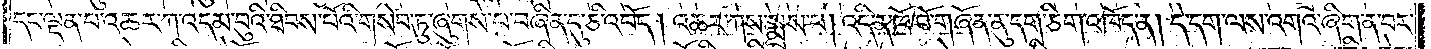དང་ལྡན་པ་འཆར་ཀ་འདམ་བུའི་ཐིབས་པོའི་གསེབ་ཏུ་ཞུགས་པ་བཞིན་དུ་ཅི་འབོད། འཆར་ཀས་སྨྲས་པ། འདི་ན་ཁོ་བོ་གཞོན་ནུ་དག་ཅིག་འཁོད་ན། དེ་དག་ལས་འགའ་ཞིག་ན་བར་
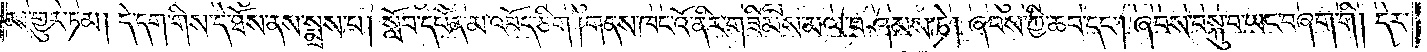མ་གྱུར་ཏམ། དེ་དག་གིས་དེ་ཐོས་ནས་སྨྲས་པ། སློབ་དཔོན་མ་འབོད་ཅིག །གནས་ཁང་འོ་ནིར་གཟིམས་མལ་བཤམས་ཏེ། ཞབས་ཀྱི་ཆབ་དང༌། ཞབས་བསྐུ་བ་ཡང་བཞག་གི །དེར་
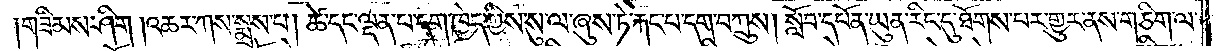གཟིམས་ཤིག །འཆར་ཀས་སྨྲས་པ། ཚེ་དང་ལྡན་པ་དག་ཁྱེད་ཀྱིས་སུ་ལ་ཞུས་ཏེ་རྐང་པ་དག་བཀྲུས། སློབ་དཔོན་ཡུན་རིང་དུ་ཐོགས་པར་གྱུར་ནས་གཅིག་ལ་
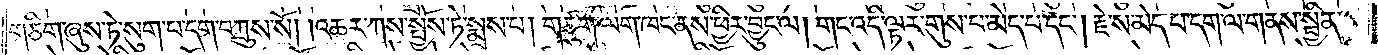གཅིག་ཞུས་ཏེ་སུག་པ་དག་བཀྲུས་སོ། །འཆར་ཀས་སྤྱོས་ཏེ་སྨྲས་པ། གཙུག་ལག་ཁང་ནས་ཕྱིར་བྱུང་ལ། གང་འདི་ལྟར་གུས་པ་མེད་པ་དང༌། རྗེ་ས་མེད་པ་དག་ལ་གནས་སྦྱིན་
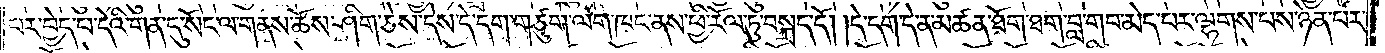པར་བྱེད་པ་དེའི་གན་དུ་སོང་ལ་གནས་ཆོས་ཤིག་ཅེས་དེས་དེ་དག་གཙུག་ལག་ཁང་ནས་ཕྱི་རོལ་ཏུ་བསྐྲད་དོ། །དེ་དག་དེ་ན་མཚན་ཐོག་ཐག་བླ་གབ་མེད་པར་ལྷགས་པས་ཉེན་པར་
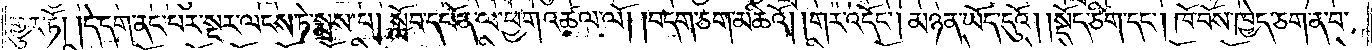གྱུར་ཏོ། །དེ་དག་ནང་པར་སྔར་ལངས་ཏེ་སྨྲས་པ། སློབ་དཔོན་ལ་ཕྱག་འཚལ་ལོ། །བདག་ཅག་མཆིའོ། །གར་འདོང༌། མཉན་ཡོད་དུའོ། །སྡོད་ཅིག་དང༌། ཁོ་བོས་ཁྱེད་ཅག་ན་བ་
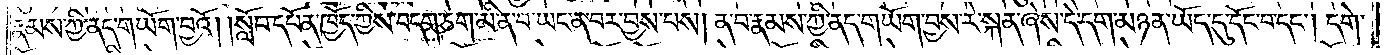རྣམས་ཀྱི་ནད་གཡོག་བྱའོ། །སློབ་དཔོན་ཁྱོད་ཀྱིས་བདག་ཅག་མི་ན་བ་ཡང་ན་བར་བྱས་པས། ན་བ་རྣམས་ཀྱི་ནད་གཡོག་བྱས་རེ་སྐན་ཞེས་དེ་དག་མཉན་ཡོད་དུ་དོང་བ་དང༌། དགེ་
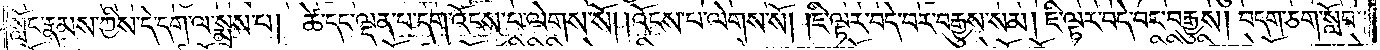སློང་རྣམས་ཀྱིས་དེ་དག་ལ་སྨྲས་པ། ཚེ་དང་ལྡན་པ་དག་འོངས་པ་ལེགས་སོ། །འོངས་པ་ལེགས་སོ། །ཇི་ལྟར་བདེ་བར་བརྒྱུས་སམ། ཇི་ལྟར་བདེ་བར་བརྒྱུས། བདག་ཅག་སློབ་
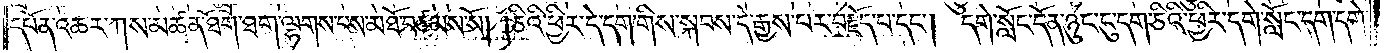དཔོན་འཆར་ཀས་མཚན་ཐོག་ཐག་ལྷགས་པས་མཐོ་བཙམས་སོ། །ཅིའི་ཕྱིར་དེ་དག་གིས་སྐབས་དེ་རྒྱས་པར་བརྗོད་པ་དང༌། དགེ་སློང་དོན་ཉུང་དུ་དག་ཅིའི་ཕྱིར་དགེ་སློང་དག་དགེ་
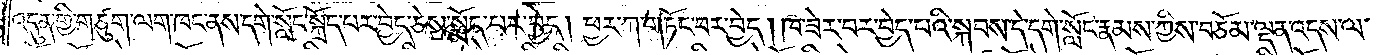འདུན་གྱི་གཙུག་ལག་ཁང་ནས་དགེ་སློང་སྐྲོད་པར་བྱེད་ཅེས་སྨོད་པར་བྱེད། ཕྱར་ཀ་གཏོང་བར་བྱེད། ཁ་ཟེར་བར་བྱེད་པའི་སྐབས་དེ་དགེ་སློང་རྣམས་ཀྱིས་བཅོམ་ལྡན་འདས་ལ་
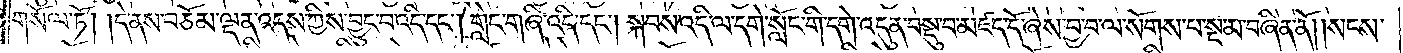གསོལ་ཏོ། །དེ་ནས་བཅོམ་ལྡན་འདས་ཀྱིས་བྱུང་བ་འདི་དང༌། གླེང་གཞི་འདི་དང༌། སྐབས་འདི་ལ་དགེ་སློང་གི་དགེ་འདུན་བསྡུ་བ་མཛད་དོ་ཞེས་བྱ་བ་ལ་སོགས་པ་སྔ་མ་བཞིན་ནོ། །སངས་
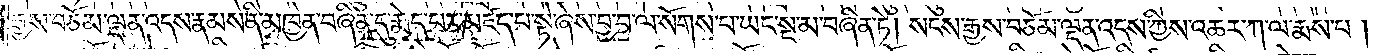རྒྱས་བཅོམ་ལྡན་འདས་རྣམས་ནི་མཁྱེན་བཞིན་དུ་རྨེད་པར་མཛད་པ་སྟེ་ཞེས་བྱ་བ་ལ་སོགས་པ་ཡང་སྔ་མ་བཞིན་ཏེ། སངས་རྒྱས་བཅོམ་ལྡན་འདས་ཀྱིས་འཆར་ཀ་ལ་རྨས་པ།
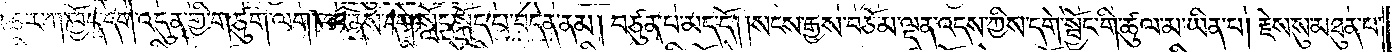འཆར་ཀ་ཁྱོད་དགེ་འདུན་གྱི་གཙུག་ལག་ཁང་ནས་དགེ་སློང་སྐྲོད་པ་བདེན་ནམ། བཙུན་པ་མད་དོ། །སངས་རྒྱས་བཅོམ་ལྡན་འདས་ཀྱིས་དགེ་སྦྱོང་གི་ཚུལ་མ་ཡིན་པ། རྗེས་སུ་མཐུན་པ་
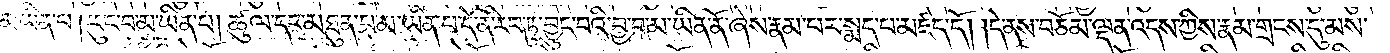མ་ཡིན་པ། རུང་བ་མ་ཡིན་པ། ཚུལ་དང་མཐུན་པ་མ་ཡིན་པ་དེ་ནི་རབ་ཏུ་བྱུང་བའི་བྱ་བ་མ་ཡིན་ནོ་ཞེས་རྣམ་པར་སྨད་པ་མཛད་དོ། །དེ་ནས་བཅོམ་ལྡན་འདས་ཀྱིས་རྣམ་གྲངས་དུ་མས་
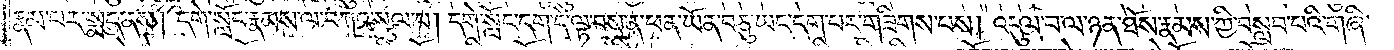རྣམ་པར་སྨད་ནས། དགེ་སློང་རྣམས་ལ་བཀའ་སྩལ་བ། དགེ་སློང་དག་དེ་ལྟ་བས་ན་ཕན་ཡོན་བཅུ་ཡང་དག་པར་གཟིགས་པས། འདུལ་བ་ལ་ཉན་ཐོས་རྣམས་ཀྱི་བསླབ་པའི་གཞི་
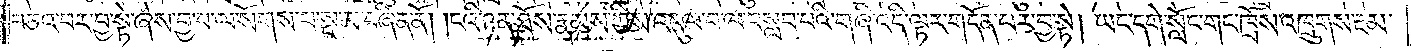བཅའ་བར་བྱ་སྟེ་ཞེས་བྱ་བ་ལ་སོགས་པ་སྔ་མ་བཞིན་ནོ། །ངའི་ཉན་ཐོས་རྣམས་ཀྱིས་འདུལ་བ་ལ་བསླབ་པའི་གཞི་འདི་ལྟར་གདོན་པར་བྱ་སྟེ། ཡང་དགེ་སློང་གང་ཁྲོས་འཁྲུགས་རྔམ་
